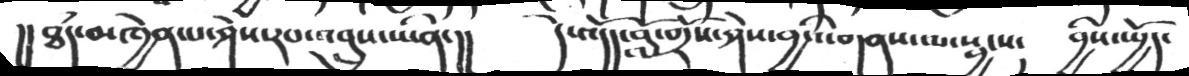།།ཐཾད་མཁྱེན་པ་ཤེས་རབ་འབྲུས་ཡིན་།།  དེ་འདོདད་བློ་གྲོས་ཤེས་བྱའི་གནས་ལ་སྦྱངས། བྱིས་སྤྱོད་
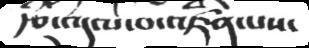རྩ་འདུལ་བ་འཛིན་པས་
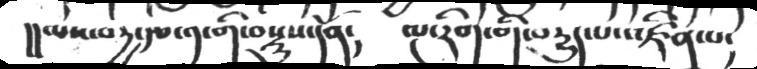།།ལས་བརྱ་རྩ་༡་གི་བསྡུས་དོན།  ལྔ་རིག་གི་བསྡུད་པ་འཛིན་པ།
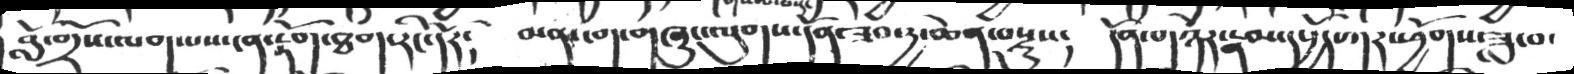བློ་གྲོས་ལག་པས་ངན་རྟོག་ཐག་རིང་དོར༴  མན་ངག་གཞུང་ལུགས་དོན་ཟབ་རྱ་ཆེན་བསྡུས༴  དོན་གཉེར་རྣམ་དཔྱོད་ཀར་ཕྱོགས་ཟླ་བ་
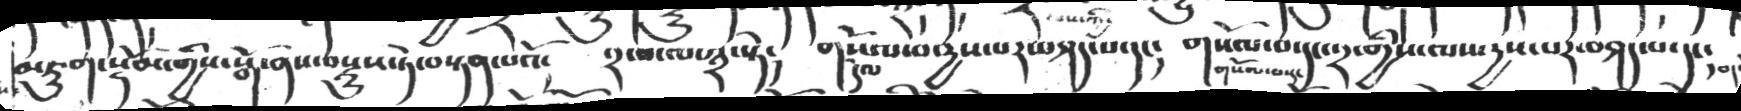མཇུག་སྡོམ་གྱིས་སྒོ་ནས་བསྡུས་ཏེ་བསྟན་པའོ།   ༢་པ་ལ་༣་སྟེ།   གསོལ་བ་རྱས་པར་བཤད་པ་དང།   གསོལ་བ་དང་༢་གྱིས་ལས་རྱས་པར་བཤད་པ་དང་དག་
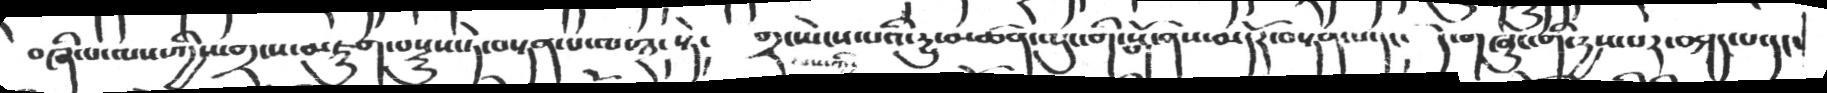བཞི་པ་ལས་ཀྱིས་གྲངས་མཇུག་བསྡུས་ཏེ་བསྟན་པ་ལ་༣་སྟེ།      གྲང་ཡེངས་པའི་རྱུ་མཚན་ལུང་གི་སྒོ་ནས་མདོར་བསྟན་པ་དང།   དེ་གཞུང་གི་རྱས་པར་བཤད་པ་དང་
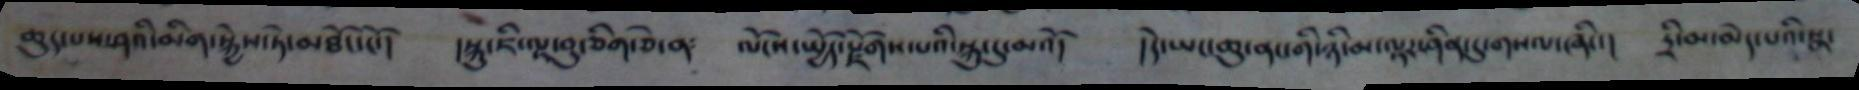ཆུད་པས་ནའི་མིག་སྐྱེས་ཏེ་མཐོང་ངོ། །སྐུ་ཇི་ལྟ་བུ་ཅིག་ཅེ་ན༴  ལོངསྤྱོད་རྫོགས་པའི་སྐུ་ུ་མའོ།  །དེ་ཡང་ཆུ་ནསགི་ཉི་མ་ལྟར་ཤིན་དུ་གསལ་་ཞིང་།  དྲི་མ་མེད་པའི་སྣ་
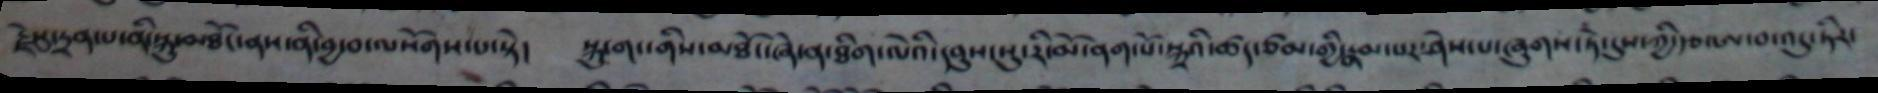རྗེསུ་དྲན་པ་ནི་སྐུ་མཐོང་ནས་ནི་བྱ་བ་ལ་སོགས་པ་སྟེ།  སྐུ་གང་གིས་མཐོང་ཞེ་ན་ཐིག་ལེའི་དབུས་སུ་རི་མོ་ནག་པོ་སྐུའི་ཚད་ཙམ་གྱི་རྣམ་པར་ཤེས་པ་ཞུགས་ཏེ་དུས་ཀྱི་རྩ་ཨ་བ་འདུ་ཏིར་
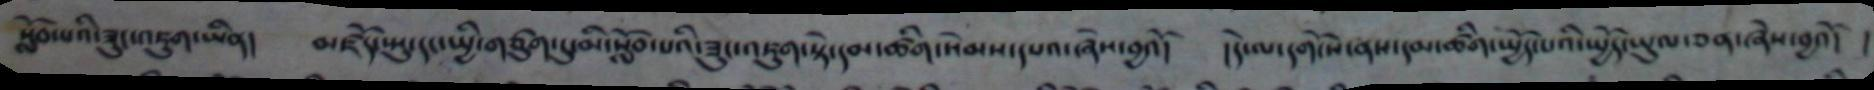སློབ་པའི་ཟུང་འཇུག་ཡིན།  མཛོད་སྤ་དང་སྤྱི་གཙུག་པུམི་སློབ་པའི་ཟུང་འཇུག་སྟེ་དམ་ཚིག་སེམས་དཔའ་ཞེས་བྱའོ།  །དེ་ལ་དགོངས་ནས་དམ་ཚིག་སྤྱོད་པའི་སྤྱོང་ཡུལ་ཅན་ཞེས་བྱའོ།  །
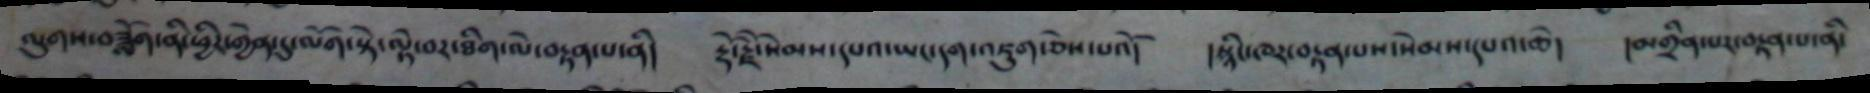ལུགས་བཟློག་ནི་ཕྱིར་གྱེན་དུ་ལོག་སྟེ་བར་ཐིག་ལེ་བསྟན་པ་ནི།  རྡོ་རྗེ་སེམས་དཔའ་ཡང་དག་འཇུག་ཅེས་པའོ།  །སྙིང་ཁར་བརྟན་པས་སེམས་པ་ཆེ།  །མགྲིག་པར་བརྟན་པ་ནི་
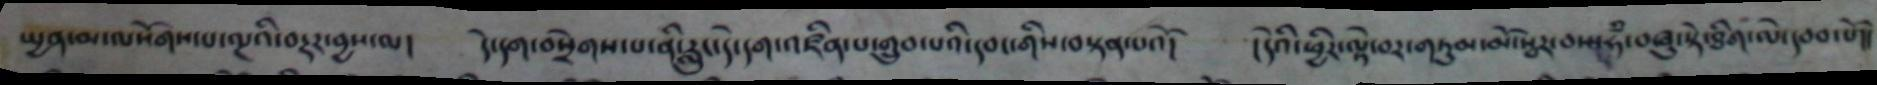སྤྱན་མ་ལསོགས་པ་ལྔའི་བརྡར་བྱས་ལ། དེ་དག་བསྲེགས་པ་ནི་རླུང་དེ་དག་འཛིན་པ་གྲུབ་པའི་དབང་གིས་བསྟན་པའོ། །དེའི་ཕྱིར་ལྟེ་བར་གཏུམ་མོ་སྦར་བས་ཧཾ་བཞུ་སྟེ་ཐིག་ལེ་དབབ་པོ།།
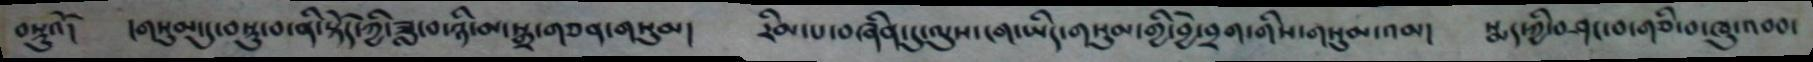བསྡུའོ། །གསུམ་དུ་བསྡུ་བ་ནི་སྟོད་ཀྱི་ཟླ་བ་ཉི་མ་སྒྲ་གཅན་གསུམ། རིམ་པ་བཞིན་དུ་ལུས་ངག་ཡིད་གསུམ་གྱི་བྱེ་བྲག་གིས་གསུམ་འམ། སྨད་ཀྱི་བཤང་བ་གཅི་བ་ཁུ་འབབ་
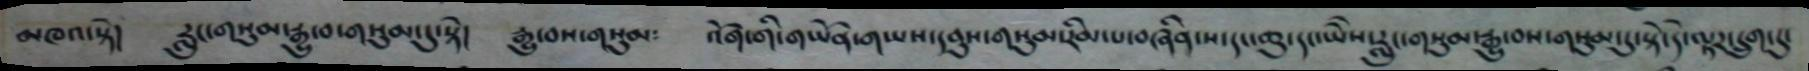མཁའ་སྟེ། རླུང་གསུམ་རྒྱུ་བ་གསུམ་དུ་ྶཏེ། རྒྱུ་བས་གསུམ༴ འོག་གི་གཡོན་གཡས་དབུས་གསུམ་རིམ་པ་བཞིན་ས་དང་ཆུ་དང་ཡཻས་རླུང་གསུམ་རྒྱ་བས་གསུམ་དུ་སྟེ་དེ་ལྟར་དྲུག་དུ་
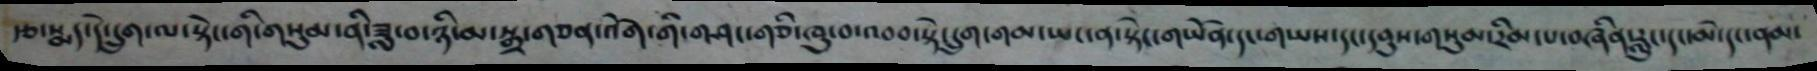རྩ་སྨད་དེ་དྲུག་ལ་སྟེང་གི་གསུམ་ནི་ཟླ་བ་ཉི་མ་སྒྲ་གཅན་འོག་གི་གཤདྷ་གཅི་ཁུ་བ་འབབ་སྟེ་དྲུག་གམ་ཡང་ན་སྟེང་གཡོན་དང་གཡས་དང་དབུས་གསུམ་རིམ་པ་བཞིན་རླུང་དང་མེ་དང་ནམ་
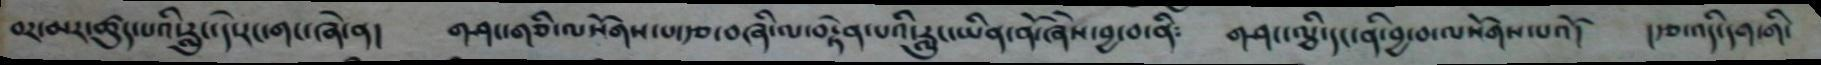བར་མར་ཚུད་པའི་རླུང་དེ་རང་གང་ཞེ་ན། གཤང་གཅི་ལ་སོགས་པ་རྩ་བཞི་ལ་བརྟེན་པའི་རླུང་ཡིན་ནོ་ཞེས་བྱ་བ་ནི༴ གཤང་ལྕི་དང་ནི་བྱ་བ་ལསོགས་པའོ། །རྩ་འདི་དག་གི་
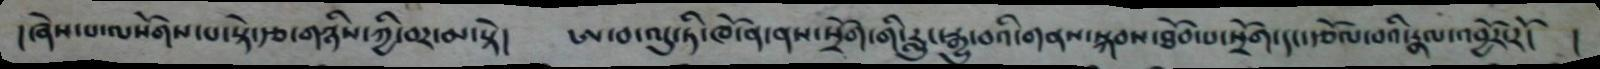།ཞེས་པ་ལསོགས་པ་སྟེ་རྩ་གཉིས་ཀྱི་བར་མ་སྟེ། ཨ་བ་འདུ་ཏི་ཁོ་ན་ནས་སྲོག་གི་རླུང་རྒྱུ་བའི་གནས་སྐབས་ཐོབ་པ་སྲོག་དང་རྩོལ་བའི་རྣལ་འབྱོར་རོ། །
